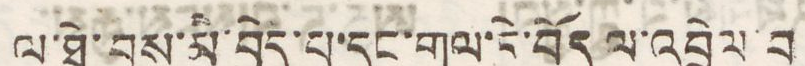ལ་ཐེ་བྱུས་མི་བྱེད་པ་དང་གལ་དེ་བོད་ལ་འབྲེལ་བ་
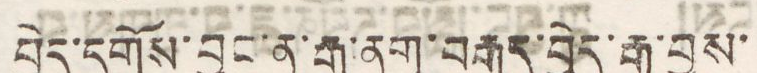བྱེད་དགོས་བྱུང་ན་རྒྱ་ནག་བརྒྱུད་བྱེད་རྒྱུ་བྱས་
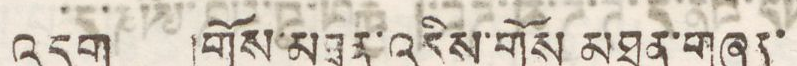འདུག །གྲོས་མཐུན་འདིས་གྲོས་མཐུན་གཞན་
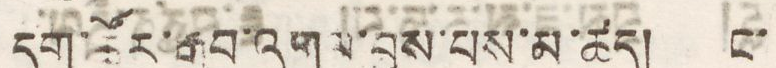དག་ཚོར་རྒྱབ་འགལ་བྱས་པས་མ་ཚད། ང་
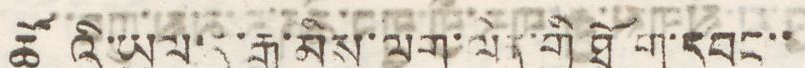ཚོའི་ཡུལ་དུ་རྒྱ་མིས་ལག་ལེན་གྱི་ཐོག་དབང་་
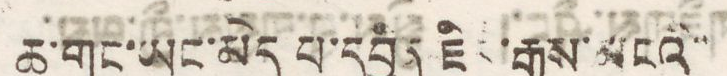ཆ་གང་ཡང་མེད པ་དབྱན ཇིར་རྒྱུས་མངའི་་
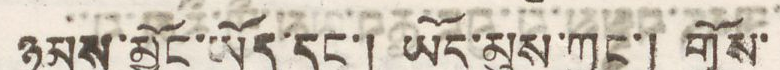ཉམས་མྱོང་ཡོད་དང་། ཡོད་མུས་ཀྱང་། གྲོས་
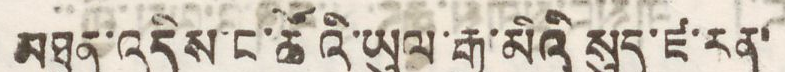མཐུན་འདིས་ང་ཚོའི་ཡུལ་རྒྱ་མའི སུད་ཛ་རན་
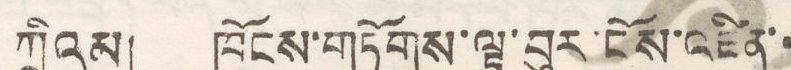ཀྲིའམ། ཁོངས་གཏོགས་ལྟ་བུར་ངོས་འཛིན་
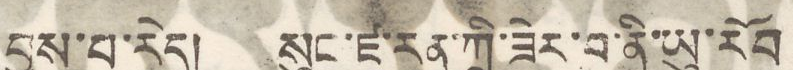བྱས་པ་རེད། སུང་ཛ་རན་ཀྲི་ཟེར་བ་ནི་ཡུ་རོབ
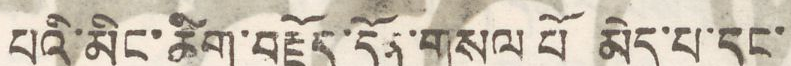པའི་མིང་ཚིག་བརྗོད་དོན་གསལ པོ་མེད་པ་དང་
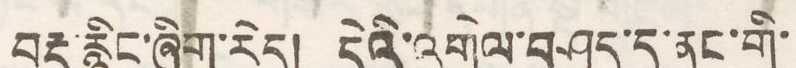བརྡ་རྙིང་ཞིག་རེད། དེའི་འགྲེལ་བཤད་དུ་ནང་གི་
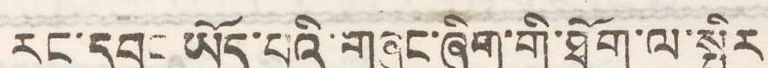རང་དབང ཡོད་པའི་གཞུང་ཞིག་གི་ཐོག་ལ་སྤྱིར
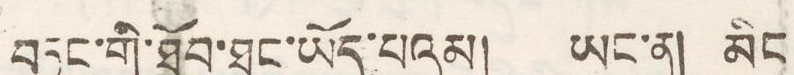བཏང་གི་ཐོབ་ཐང་ཡོད་པའམ། ཡང་ན། མིང
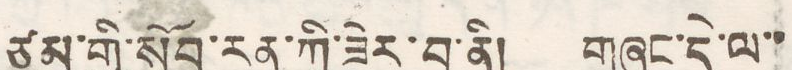ཙམ་གྱི་སོབ་རན་ཀྲི་ཟེར་བ་ནི། གཞུང་དེ་ལ་་
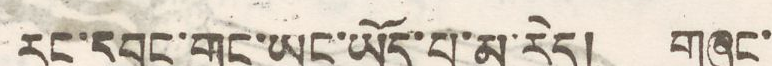རང་དབང་གང་ཡོད་པ་མ་རེད། གཞུང་
